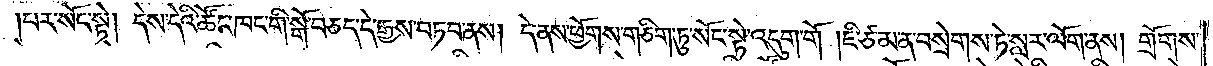པར་སོང་སྟེ། དེས་དེའི་ཚོང་ཁང་གི་སྒོ་བཅད་དེ་རྒྱས་བཏབ་ནས། དེ་ནས་ཕྱོགས་གཅིག་ཏུ་སོང་སྟེ་འདུག་གོ། ཇི་ཙམ་ན་བསྲེགས་ཏེ་སླར་ལོག་ནས། གྲོགས་
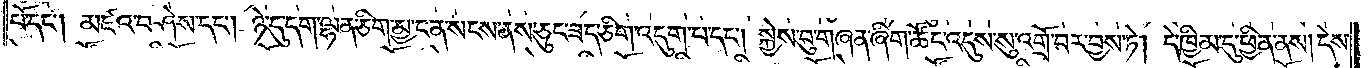པོ་དང༌། མཛའ་བཤེས་དང༌། ཉེ་དུ་དག་ལྷན་ཅིག་མྱ་ངན་སངས་ནས་ཅུང་ཟད་ཅིག་འདུག་པ་དང༌། སྐྱེས་བུ་གཞན་ཞིག་ཚོང་འདུས་སུ་འགྲོ་བར་བྱས་ཏེ། དེ་ཁྱིམ་དུ་ཕྱིན་ནས། དེས་
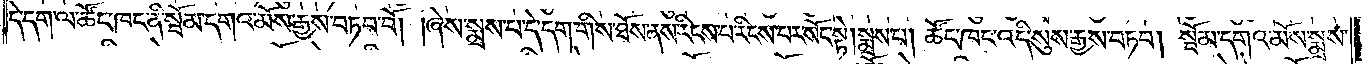དེ་དག་ལ་ཚོང་ཁང་ནི་སྦོམ་དགའ་མོས་རྒྱས་བཏབ་བོ། །ཞེས་སྨྲས་པ་དེ་དག་གིས་ཐོས་ནས་རིངས་པ་རིངས་པར་སོང་སྟེ། སྨྲས་པ། ཚོང་ཁང་འདི་སུས་རྒྱས་བཏབ། སྦོམ་དགའ་མོས་སྨྲས་
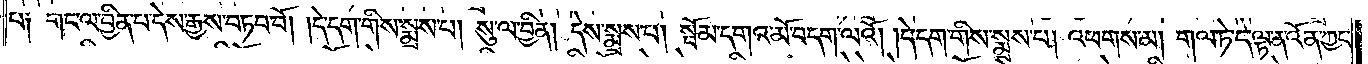པ༑ གང་ལ་བྱིན་པ་དེས་རྒྱས་བཏབ་བོ། །དེ་དག་གིས་སྨྲས་པ། སུ་ལ་བྱིན། དེས་སྨྲས་པ། སྦོམ་དགའ་མོ་བདག་ལའོ། །དེ་དག་གིས་སྨྲས་པ། འཕགས་མ། གལ་ཏེ་དེ་ལྟ་ན་འོན་ཀྱང་
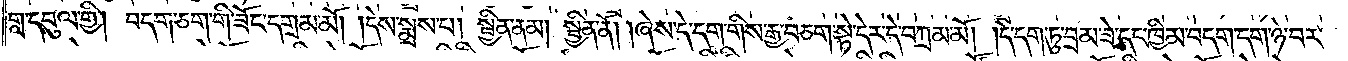གླ་དབུལ་གྱི། བདག་ཅག་གི་ཟོང་དགྲམ་མོ། །དེས་སྨྲས་པ། སྦྱིན་ནམ། སྦྱིན་ནོ། །ཞེས་དེ་དག་གིས་རྒྱ་བཅག་སྟེ་དེར་དེ་བཀྲམ་མོ། །དེ་དག་ཏུ་བྲམ་ཟེ་དང་ཁྱིམ་བདག་དག་ཉེ་བར་
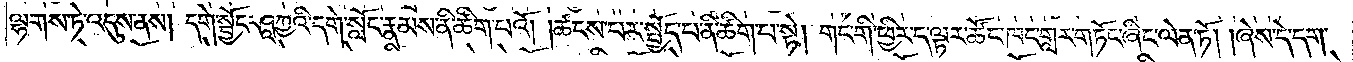ལྷགས་ཏེ་འདུས་ནས། དགེ་སྦྱོང་ཤཱཀྱའི་དགེ་སློང་རྣམས་ནི་ཚིག་པའོ། །ཚངས་པར་སྤྱོད་པ་ནི་ཚིག་པ་སྟེ། གང་གི་ཕྱིར་ད་ལྟར་ཚོང་ཁང་གླར་གཏོང་ཞིང་ལེན་ཏོ། །ཞེས་དེ་དག་
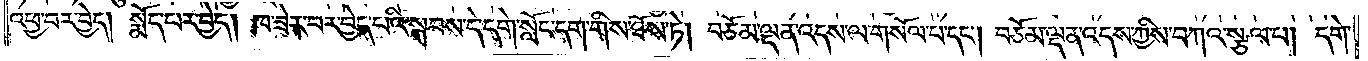འཕྱ་བར་བྱེད། སྨོད་པར་བྱེད། ཁ་ཟེར་བར་བྱེད་པའི་སྐབས་དེ་དགེ་སློང་དག་གིས་ཐོས་ཏེ། བཅོམ་ལྡན་འདས་ལ་གསོལ་བ་དང༌། བཅོམ་ལྡན་འདས་ཀྱིས་བཀའ་སྩལ་པ། དགེ་
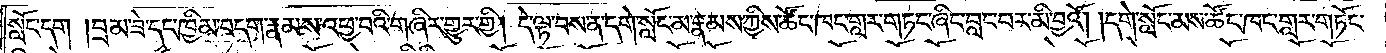སློང་དག །བྲམ་ཟེ་དང་ཁྱིམ་བདག་རྣམས་འཕྱ་བའི་གཞིར་གྱུར་གྱི། དེ་ལྟ་བས་ན་དགེ་སློང་མ་རྣམས་ཀྱིས་ཚོང་ཁང་གླར་གཏང་ཞིང་བླང་བར་མི་བྱའོ། །དགེ་སློང་མས་ཚོང་ཁང་གླར་གཏོང་
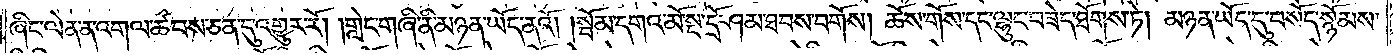ཞིང་ལེན་ན་འགལ་ཚབས་ཅན་དུ་འགྱུར་རོ། །གླེང་གཞི་ནི་མཉན་ཡོད་ནའོ། །སྦོམ་དགའ་མོ་སྔ་དྲོ་ཤམ་ཐབས་བགོས། ཆོས་གོས་དང་ལྷུང་བཟེད་ཐོགས་ཏེ། མཉན་ཡོད་དུ་བསོད་སྙོམས་
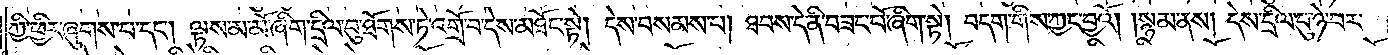ཀྱི་ཕྱིར་ཞུགས་པ་དང༌། ལྟས་མ་མོ་ཞིག་དྲིལ་བུ་ཐོགས་ཏེ་འགྲོ་བ་དེས་མཐོང་སྟེ། དེས་བསམས་པ། ཐབས་དེ་ནི་བཟང་པོ་ཞིག་སྟེ། བདག་གིས་ཀྱང་བྱའོ། །སྙམ་ནས། དེས་དྲིལ་བུ་ཉེ་བར་
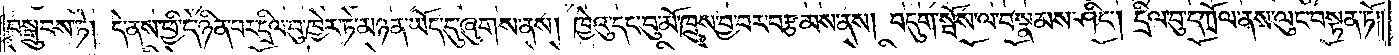བསྒྲུབས་ཏེ། དེ་ནས་ཕྱི་དེ་ཉིན་པར་དྲིལ་བུ་ཁྱེར་ཏེ་མཉན་ཡོད་དུ་ཞུགས་ནས། ཁྱེའུ་དང་བུ་མོ་ཁྲུས་བྱ་བར་བརྩམས་ནས། བདུག་སྤོས་ལ་བསྣམས་ཤིང༌། དྲིལ་བུ་དཀྲོལ་ནས་ལུང་བསྟན་ཏོ། །
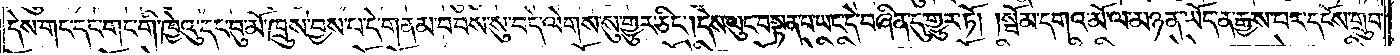དེས་གང་དང་གང་གི་ཁྱེའུ་དང་བུ་མོ་ཁྲུས་བྱས་པ་དེ་གནམ་བབས་སུ་བདེ་ལེགས་སུ་གྱུར་ཅིང༌། དེས་ལུང་བསྟན་པ་ཡང་དེ་བཞིན་དུ་གྱུར་ཏོ། །སྦོམ་དགའ་མོ་ལ་མཉན་ཡོད་ན་རྒྱས་པར་དངོས་གྲུབ་
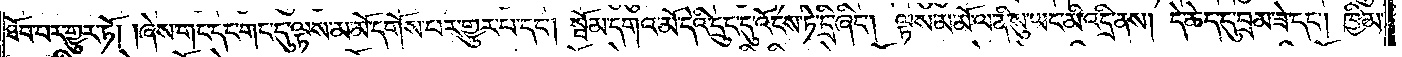ཐོབ་པར་གྱུར་ཏོ། །ཞེས་གང་དང་གང་དུ་ལྟས་མ་མོ་དགོས་པར་གྱུར་བ་དང༌། སྦོམ་དགའ་མོ་དེའི་དྲུང་དུ་འོངས་ཏེ་དྲི་ཞིང༌། ལྟས་མ་མོ་ལ་ནི་སུ་ཡང་མི་འདྲི་ནས། དེ་ཆེད་དུ་བྲམ་ཟེ་དང༌། ཁྱིམ་
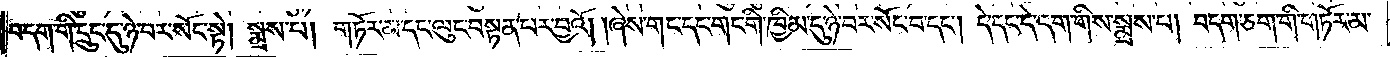བདག་གི་དྲུང་དུ་ཉེ་བར་སོང་སྟེ། སྨྲས་པ། གཏོར་མ་དང་ལུང་བསྟན་པར་བྱའོ། ཞེས་གང་དང་གང་གི་ཁྱིམ་དུ་ཉེ་བར་སོང་བ་དང༌། དེ་དང་དེ་དག་གིས་སྨྲས་པ། བདག་ཅག་གི་གཏོར་མ་
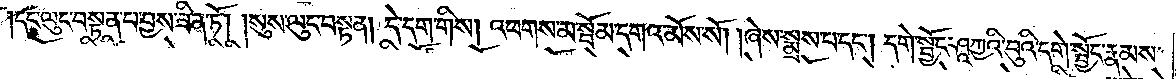དང་ལུང་བསྟན་པ་བྱས་ཟིན་ཏོ། །སུས་ལུང་བསྟན། དེ་དག་གིས། འཕགས་མ་སྦོམ་དགའ་མོས་སོ། །ཞེས་སྨྲས་པ་དང༌། དགེ་སྦྱོང་ཤཱཀྱའི་བུའི་དགེ་སྦྱོང་རྣམས་
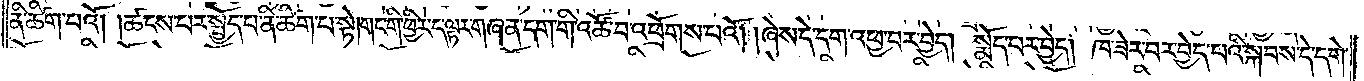ནི་ཚིག་པའོ། །ཚངས་པར་སྤྱོད་པ་ནི་ཚིག་པ་སྟེ། གང་གི་ཕྱིར་ད་ལྟར་གཞན་དག་གི་འཚོ་བ་འཕྲོགས་པའོ། །ཞེས་དེ་དག་འཕྱ་བར་བྱེད། སྨོད་པར་བྱེད། ཁ་ཟེར་བར་བྱེད་པའི་སྐབས་དེ་དགེ་
